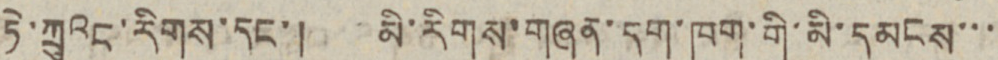ཏེ་ཀྲུའང་རིགས་དང་། མི་རིགས་གཞན་དག་ཁག་གི་མི་དམངས་་་
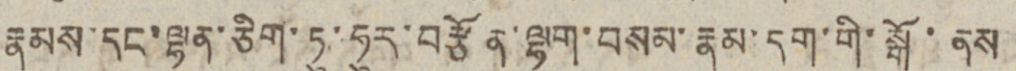རྣམས་དང་ལྷན་ཅིག་ཏུ་ཧུར་བརྩོན་ལྷག་བསམ་རྣམ་དག་གི་སྒོ་ནས
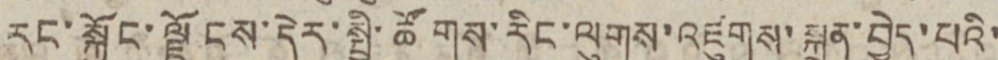རང་སྐྱོང་ལྗོངས་དེར་སྤྱི་ཚོགས་རིང་ལུགས་འཛུགས་སྐྲུན་བྱེད་པའི་
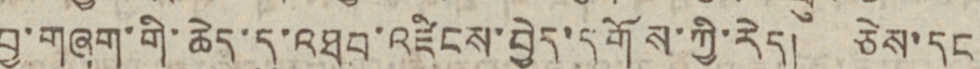བྱ་གཞག་གི་ཆེད་དུ་འཐབ་འཛིངས་བྱེད་དགོས་ཀྱི་རེད། ཅེས་དང །
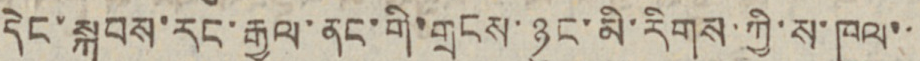དེང་སྐབས་རང་རྒྱལ་ནང་གི་གྲངས་ཉུང་མི་རིགས་ཀྱི་ས་ཁུལ་་་
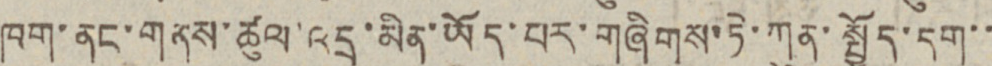ཁག་ནང་གནས་ཚུལ་འདྲ་མིན་ཡོད་པར་གཞིགས་ཏེ་ཀུན་སྤྱོད་དག་་
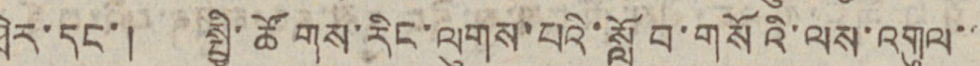ཐེར་དང་། སྤྱི་ཚོགས་རིང་ལུགས་པའི་སློབ་གསོའི་ལས་འགུལ་་
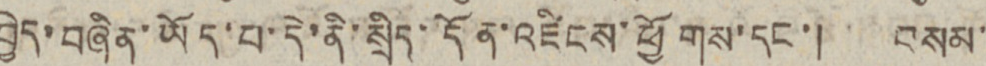བྱེད་བཞིན་ཡོད་པ་དེ་ནི་སྲིད་དོན་འཛིངས་ཕྱོགས་དང་། བསམ་
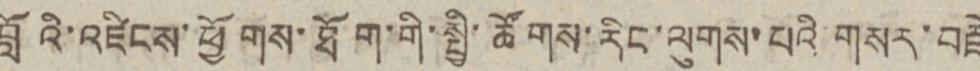བློའི་འཛིངས་ཕྱོགས་ཐོག་གི་སྤྱི་ཚོགས་རིང་ལུགས་པའི་གསར་བརྗེ
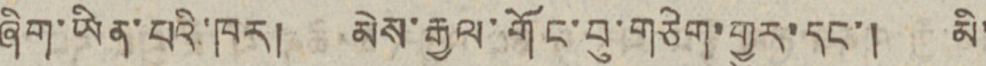ཞིག་ཡིན་པའི་ཁར། མེས་རྒྱལ་གོང་བུ་གཅིག་གྱུར་དང་། མི་
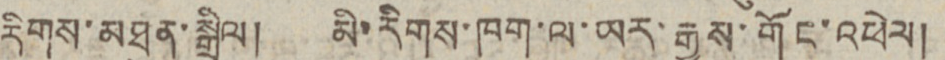རིགས་མཐུན་སྒྲིལ། མི་རིག་ཁག་ལ་ཡར་རྒྱས་གོང་འཕེལ།
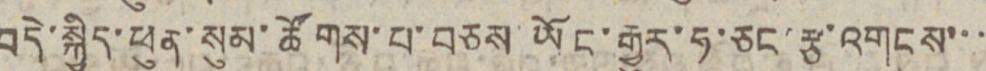བདེ་སྐྱིད་ཕུན་སུམ་ཚོགས་པ་བཅས་ཡོང་རྒྱུར་ཧ་ཅང་རྩ་འགངས་་་
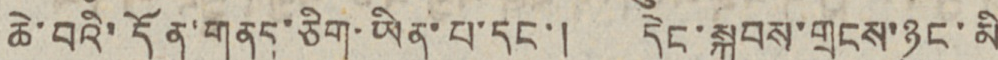ཆེ་བའི་དོན་གནད་ཅིག་ཡིན་པ་དང་། དེང་སྐབས་གྲངས་ཉུང་མི
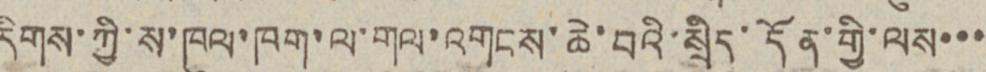རིགས་ཀྱི་ས་ཁུལ་ཁག་ལ་གལ་འགངས་ཆེ་བའི་སྲིད་དོན་གྱི་ལས་་་
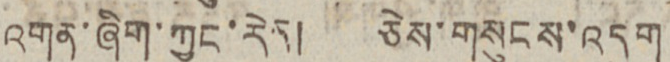འགན་ཞིག་ཀྱང་རེད། ཅེས་གསུངས་འདུག
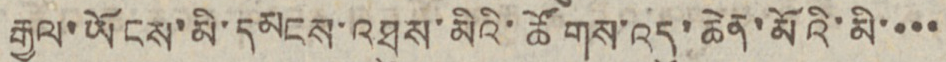རྒྱལ་ཡོངས་མི་དམངས་འཐུས་མིའི་ཚོགས་འདུ་ཆེན་མོའི་མི་་་་
